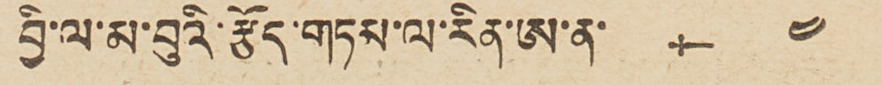བྱི་ལ་མ་བུའི་རྩོད་གཏམ་ལ་རིན་ཨ་ན་ -:— ༤
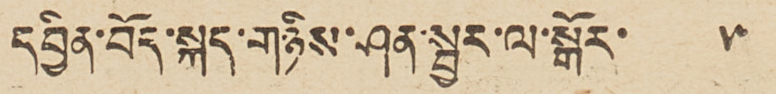དབྱིན་བོད་སྐད་གཉིས་ཤན་སྦྱར་ལ་སྒོར་ ༥
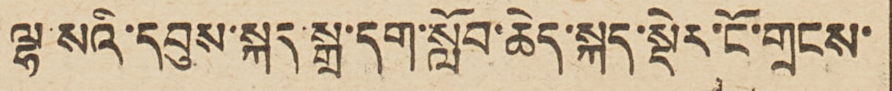ལྷ་སའི་དབུས་སྐད་སྒྲ་དག་སློབ་ཆེད་སྡེར་ངོ་གྲངས་
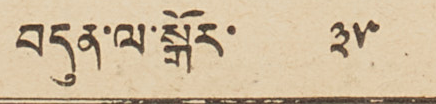བདུན་ལ་སྒོར་ ༣༥
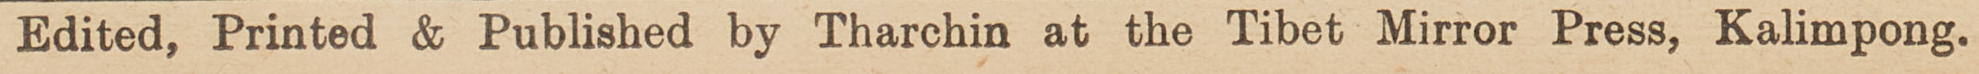Edited, Printed & Published by Tharchin at the Tibet Mirror Press, Kalimpong.
